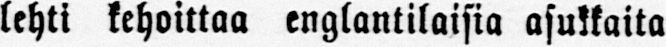lehti kehoittaa englantilaisia asukkaita
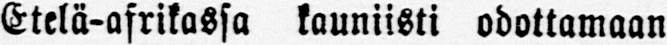Etelä-afrikassa kauniisti odottamaan
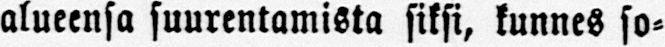alueensa suurentamista siksi, kunnes so-
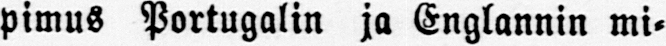pimus Portugalin ja Englannin mi-
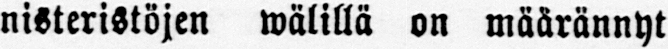nisteristöjen wälillä on määrännyt
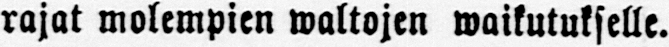rajat molempien waltojen waikutukselle.
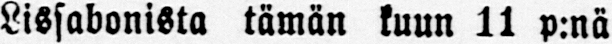Lissabonista tämän kuun 11 p:nä
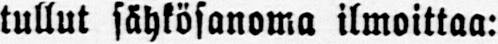tullut sähkösanoma ilmoittaa:
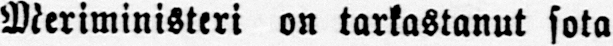Meriministeri on tarkastanut sota
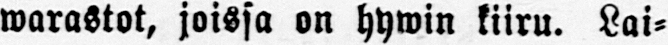warastot, joissa on hywin kiiru. Lai-
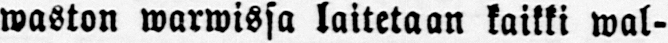waston warwissa laitetaan kaikki wal-
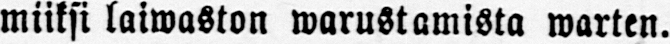miiksi laiwaston warustamista warten.
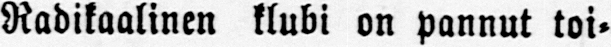Radikaalinen klubi on pannut toi-
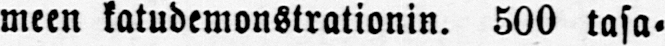meen katudemonstrationin. 500 tasa-
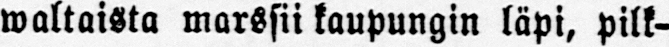waltaista marssii kaupungin läpi, pilk-
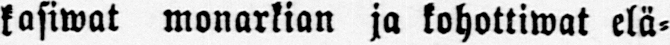kasiwat monarkian ja kohottiwat elä-
